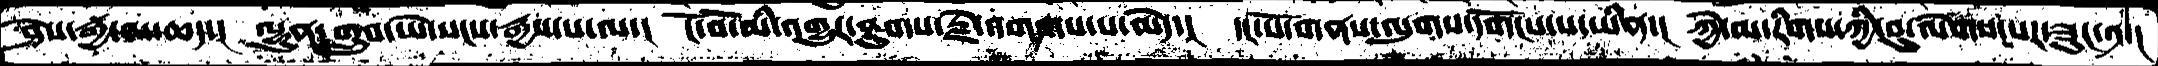ཤེས་རྒྱ་མ་ཆད་།  ལྷུན་གྲུབ་ཡེ་སངས་རྒྱས་པ་ལ་།  ངོ་བོ་མི་འགྱུར་ཐུགས་རྗེ་འགགས་པ་མེད་།  དང་པོ་གནས་ལུགས་དགོངས་པ་ཡིན་།  ཀྱེ་མ་རིགས་ཀྱི་བུ་ལེགས་པར་ཟུང་༡་།
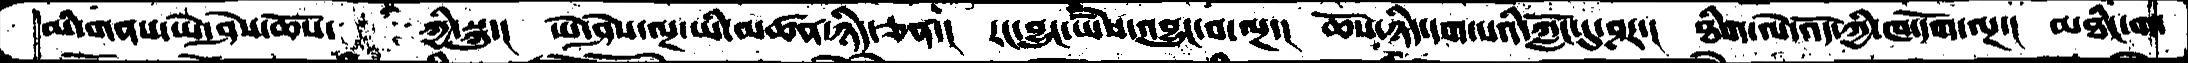མི་གནས་ཡེ་ཤེས་ཆོས་      ཀྱི་སྐུ་།  ཡེ་ཤེས་ལྔ་ཡི་མཚན་ཉིད་ཅན་།  རང་བྱུང་ཡཻས་འབྱུང་བ་ལྔ་།  ཆོས་ཉིད་དག་པའི་ཀློང་དུ་ཤར་།  ཐིག་ལེ་འོད་ཀྱི་ཁ་དོག་ལྔ་།  མཐིང་ག་
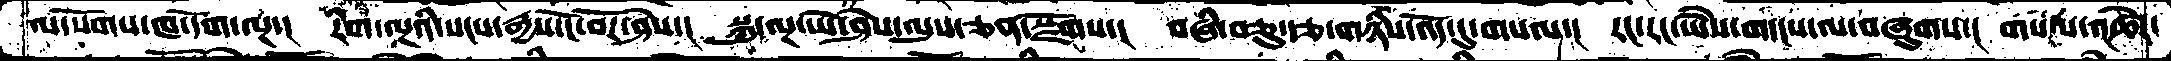ལ་སོགས་ཁ་དོག་ལྔ་།   རིག་ལྔའི་སངས་རྒྱས་ངོ་བོར་ཤེས་།   སྐུ་ལྔ་ཡེ་ཤེས་ལུས་ཅན་སྫོགས་།  བཞི་བཅུ་རྩ་གཉིས་འོད་དུ་གསལ་།  རང་རང་ཡཻས་གདངས་ལ་བཞུགས་།  གསལ་འཚེར་
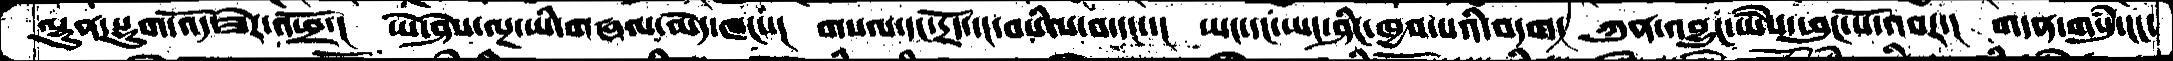ལྷུན་སྡུག་འོད་ཟེར་འཕྲོ་།  ཡེ་ཤེས་ལྔ་ཡི་གཞལ་མེད་ཁང་་།  གསལ་དང་དྲོད་དང་བསིལ་བ་དང་་།  ཡང་དང་ཡང་ཤིང་ཁྱབ་པའི་བདག།  ཀུན་འབྱུང་ཡཻས་ཕུང་པོ་འབར་།  གདན་གསུཾ་ངང་
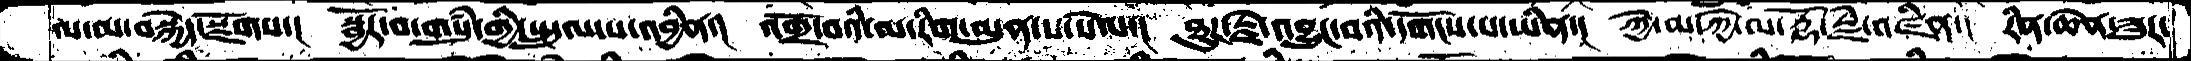ལ་མ་བསྐྱེད་སྫོགས་།  སྦྱོར་བ་གསུཾ་གྱི་སྤྲུལ་པ་འབྱིན་།  འགྲོ་བའི་མ་རིག་མུན་པ་སེལ་།  ཐུགས་རྗེ་འབྱུང་བའི་དགོངས་པ་ཡིན་།  ཀྱེ་མ་ཀྱེ་མ་རྡོ་རྗེ་འཛིན་།  རིན་ཆེན་ཟུར་
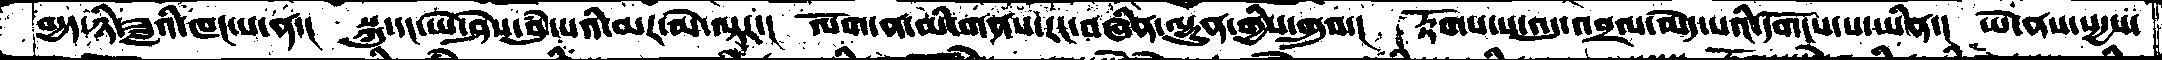བདྱད་ཉི་ཟླའི་ཁང་པ་ན་།  སྐུ་དང་ཡེ་ཤེས་བུཾ་པའི་མར་མེ་ལྟར་།  ལོག་ན་མི་གནས་རང་བཞིན་ལྷུན་གྱིས་གྲུབ་།   རྟོགས་པ་འདུ་འབྲལ་མེད་པའི་དགོངས་པ་ཡིན་།  ཡེ་ནས་སདྱས་
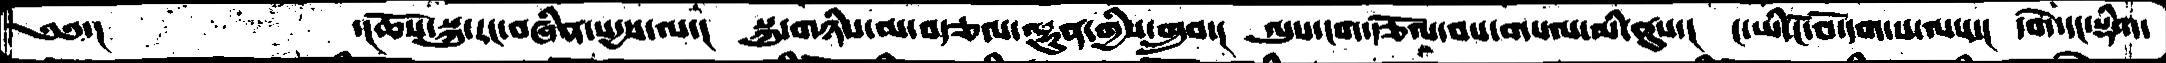༄༅་།    ་།ཆོས་སྐུ་རང་བཞིན་སདྱས་ལ་།  སྐུ་གཉིས་མ་བརྩལ་ལྷུན་གྱིས་གྲུབ་།  ལུས་ངག་རྩོལ་བས་གསལ་མི་ནུས་།  ང་ཡི་ངོ་བོ་དག་པ་ལས་།  དགེ་དང་སྡིག་
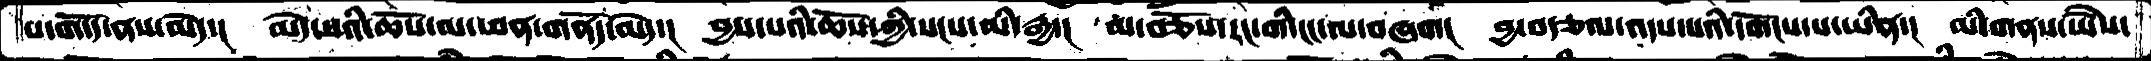པ་གདོད་ནས་མེད་།  མེད་པའི་ཆོས་ལ་ཕན་གནོད་མེད་།  བྱས་པའི་ཆོས་ཀྱི་སངས་མི་རྒྱ་།  མ་བཅོས་རང་གི་ངང་ལ་བཞག།  བྱ་བརྩམ་འདས་པའི་དགོངས་པ་ཡིན་།  མི་གནས་ཡཻས་
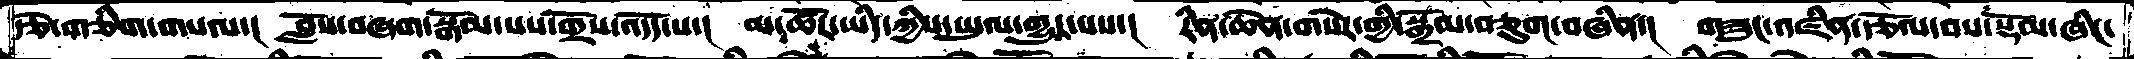རྩེ་གཅིག་གསལ་།  བློས་བཞག་སྒོམ་པས་གྲོས་འདོད་པ་།  མ་ཚོར་ཡིད་ཀྱིས་ཡུལ་གྱུར་པས་།  རིན་ཆེན་གསེར་གྱི་སྒྲོམ་བཅུག་བཞིན་།  གཟུང་འཛིན་རྩོལ་བས་སྡོམ་ཞིང་
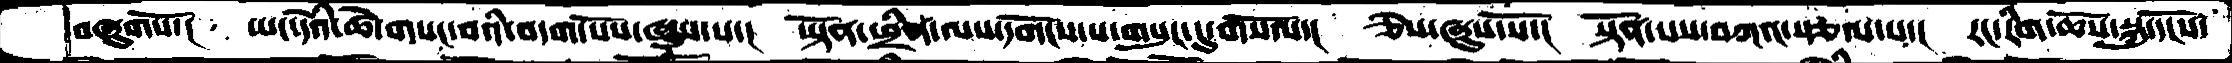བཞུགསོ་།  ཡང་དེའི་ཚེ་གསང་བའི་བདག་པོས་ཞུས་པ་།  ཡྟོན་ཕྲིན་ལས་དགོངས་པ་གསུང་དུ་གསོལ་།  ཅེས་ཞུས་སོ་།  སྟོན་པས་བཀའ་སྩལ་པ་།  རང་རིག་ཆོས་སྐུ་དངོས་
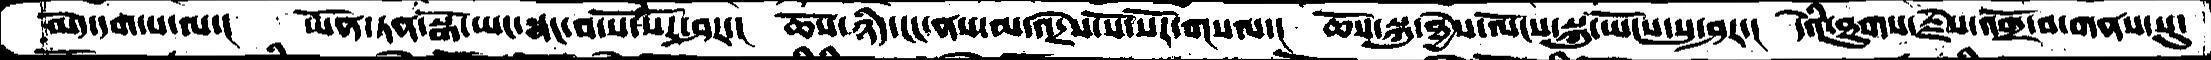མེད་དག་པ་ལ་།  ཡོན་ཏན་སྒོ་ཡང་སྣང་བ་སོ་སོར་ཤར་།  ཆོས་ཉིད་ངང་ནས་མ་འདྲེས་སོ་སོར་གསལ་།  ཆོས་སྐུ་ཐྱེས་ལོངས་སྐུ་ཡོངས་སུ་ཤར་།  དེའི་ཐུགས་རྗེས་འགྲོ་བ་གནས་སུ་
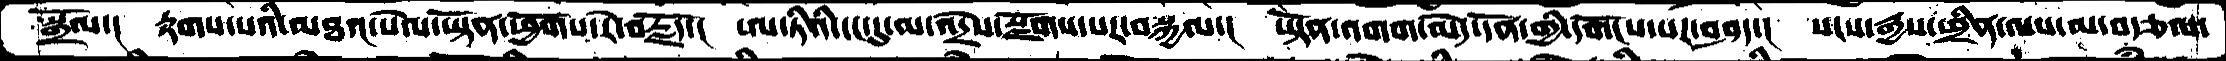སྒྲོལ་།  རྟགས་པའི་མཐའ་སེལ་ཡྟོན་ཕྱོགས་རེ་བརྗོད་།  ཨ་ཏིའི་ངང་དུ་མ་འདྲེས་སྫོགས་པར་བསྐྱལ་།  ཡྟོན་འགག་མེད་དོན་གྱི་དགོངས་པར་བཤད་།  སངས་རྒྱས་ཕྲིན་ལས་མ་བརྩལ་
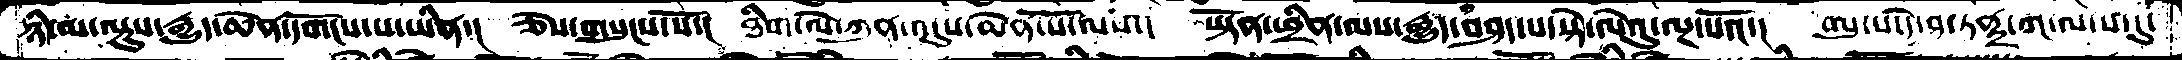ཉི་མ་ལྟུས་རྒྱུད་ཆེན་དགོངས་པ་ཡིན་།  ཅེས་གསུངས་སོ་།  ཐིག་ལེ་ཀུན་འདུས་ཆེན་པོ་ལས་།  ཡྟོན་ཕྲིན་ལས་རྒྱུད་བཤད་པ་སྟེ་ལེའུ་ལྔ་པའོ་།  ཨུ་པ་དེ་ཤ་ཏནྟྲ་ཀ་ལ་པ་དུ་
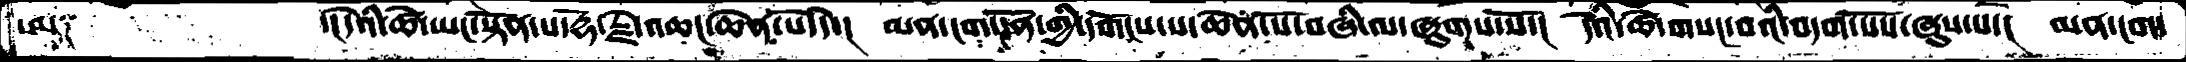ཨ༑      ་།དེའི་ཚེ་ཡང་སྟོན་པ་རྡོ་རྗེ་འཆང་ཆེན་པོ་དེ་། མན་ངག་དོན་གྱི་དགོངས་པ་ཆེན་པོ་བཞི་ལ་ཞུགས་སོ་། དེའི་ཚེ་གསང་བའི་བདག་པོས་ཞུས་སོ་།  མན་ངག་
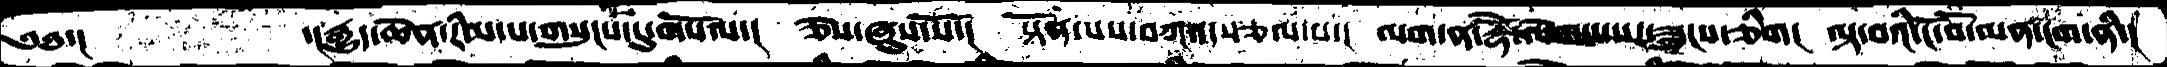༄༅་།    ་།རྒྱུད་ཆེན་རིམ་པ་གསུངས་སུ་གསོལ་།  ཅེས་ཞུས་སོ་།  སྟོན་པས་བཀའ་སྩལ་པ་།  ལག་ན་རྡོེ་ལེགས་པར་ཟུངས་ཅིག།  ལྟ་བའི་ངོ་བོ་མན་ངག་ནི་།
